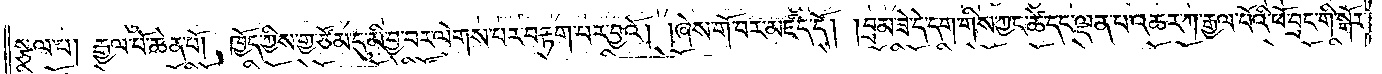སྩལ་པ། རྒྱལ་པོ་ཆེན་པོ། ཁྱོད་ཀྱིས་གྱ་ཙོམ་དུ་མི་བྱ་བར་ལེགས་པར་བརྟག་པར་བྱའོ། །ཞེས་གོ་བར་མཛད་དོ། །བྲམ་ཟེ་དེ་དག་གིས་ཀྱང་ཚེ་དང་ལྡན་པ་འཆར་ཀ་རྒྱལ་པོའི་ཕོ་བྲང་གི་སྒོར་
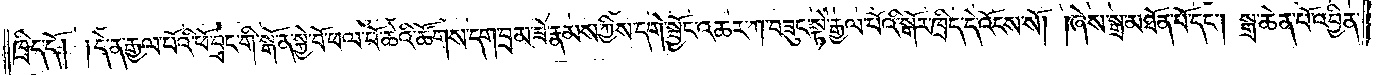ཁྲིད་དོ། །དེ་ན་རྒྱལ་པོའི་ཕོ་བྲང་གི་སྒོ་ན་སྐྱེ་བོ་ཕལ་པོ་ཆེའི་ཚོགས་དག་བྲམ་ཟེ་རྣམས་ཀྱིས་དགེ་སྦྱོང་འཆར་ཀ་བཟུང་སྟེ་རྒྱལ་པོའི་སྒོར་ཁྲིད་དེ་འོངས་སོ། །ཞེས་སྒྲ་མཐོན་པོ་དང༌། སྒྲ་ཆེན་པོ་འབྱིན་
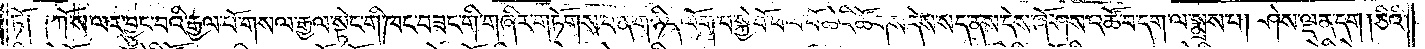ཏོ༑ ༑ཀོ་ས་ལར་བྱུང་བའི་རྒྱལ་པོ་གསལ་རྒྱལ་སྟེང་གི་ཁང་བཟང་གི་གཞིར་གཏོགས་པ་ན་གཉིད་ལོག་པ་སྐྱེ་བོ་ཕལ་པོ་ཆེའི་ཚོགས་དེས་སད་ནས་དེས་ཞོ་ཤས་འཚོ་བ་དག་ལ་སྨྲས་པ། ཤེས་ལྡན་དག །ཅིའི་
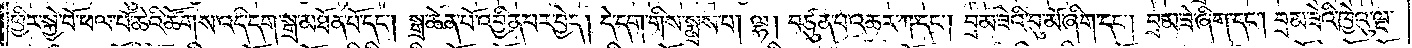ཕྱིར་སྐྱེ་བོ་ཕལ་པོ་ཆེའི་ཚོགས་འདི་དག་སྒྲ་མཐོན་པོ་དང༌། སྒྲ་ཆེན་པོ་འབྱིན་པར་བྱེད། དེ་དག་གིས་སྨྲས་པ། ལྷ། བཙུན་པ་འཆར་ཀ་དང༌། བྲམ་ཟེའི་བུ་མོ་ཞིག་དང༌། བྲམ་ཟེ་ཞིག་དང༌། བྲམ་ཟེའི་ཁྱེའུ་ལྔ་
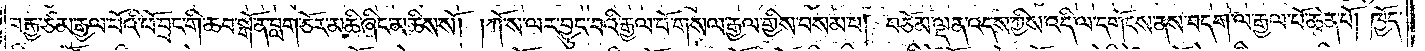བརྒྱ་ཙམ་རྒྱལ་པོའི་ཕོ་བྲང་གི་ཆབ་སྒོ་ན་བླག་ཅོར་མཆི་ཞིང་མཆིས་སོ། །ཀོ་ས་ལར་བྱུང་བའི་རྒྱལ་པོ་གསལ་རྒྱལ་གྱིས་བསམ་པ། བཅོམ་ལྡན་འདས་ཀྱིས་འདི་ལ་དགོངས་ནས་བདག་ལ་རྒྱལ་པོ་ཆེན་པོ། ཁྱོད་
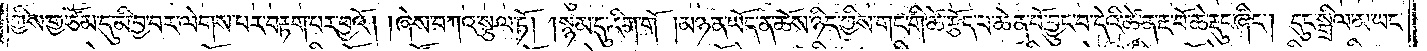ཀྱིས་གྱ་ཙོམ་དུ་མི་བྱ་བར་ལེགས་པར་བརྟག་པར་བྱའོ། །ཞེས་བཀའ་སྩལ་ཏོ། །སྙམ་དུ་རིག་གོ །མཉན་ཡོད་ན་ཆོས་ཉིད་ཀྱིས་གང་གི་ཚེ་རྩོད་པ་ཆེན་པོ་བྱུང་བ་དེའི་ཚེ་ན་རྔ་བོ་ཆེ་རྡུང་ཞིང༌། དུང་སྒྲིལ་མ་ཡང་
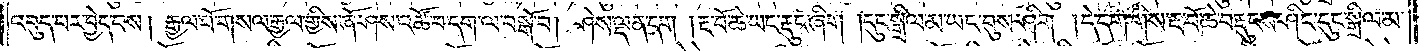འབུད་པར་བྱེད་པས། རྒྱལ་པོ་གསལ་རྒྱལ་གྱིས་ཞོ་ཤས་འཚོ་བ་དག་ལ་བསྒོ་བ། ཤེས་ལྡན་དག །རྔ་བོ་ཆེ་ཡང་རྡུང་ཞིག །དུང་སྒྲིལ་མ་ཡང་བུས་ཤིག །དེ་དག་གིས་རྔ་བོ་ཆེ་བརྡུངས་ཤིང་དུང་སྒྲིལ་མ་
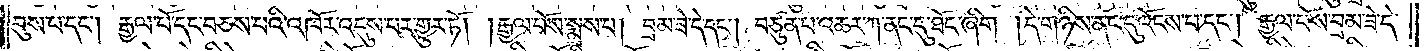བུས་པ་དང༌། རྒྱལ་པོ་དང་བཅས་པའི་འཁོར་འདུས་པར་གྱུར་ཏོ། །རྒྱལ་པོས་སྨྲས་པ། བྲམ་ཟེ་དེ་དང༌། བཙུན་པ་འཆར་ཀ་ནང་དུ་ཐོང་ཞིག །དེ་གཉིས་ནང་དུ་འོངས་པ་དང༌། རྒྱལ་པོས་བྲམ་ཟེ་དེ་
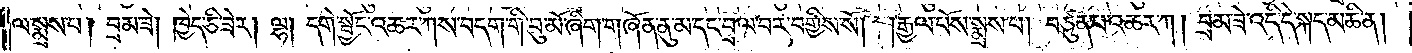ལ་སྨྲས་པ། བྲམ་ཟེ། ཁྱེད་ཅི་ཟེར། ལྷ། དགེ་སྦྱོང་འཆར་ཀས་བདག་གི་བུ་མོ་ཞིག་གཞོན་ནུ་མ་དང་བྲལ་བར་བགྱིས་སོ། །རྒྱལ་པོས་སྨྲས་པ། བཙུན་པ་འཆར་ཀ། བྲམ་ཟེ་འདི་དེ་སྐད་མཆི་ན།
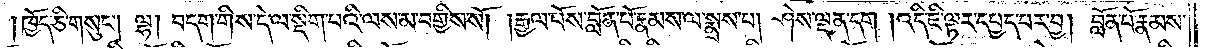ཁྱོད་ཅི་གསུང༌། ལྷ། བདག་གིས་དེ་ལ་སྡིག་པའི་ལས་མ་བགྱིས་སོ། །རྒྱལ་པོས་བློན་པོ་རྣམས་ལ་སྨྲས་པ། ཤེས་ལྡན་དག །འདི་ཇི་ལྟར་དཔྱད་པར་བྱ། བློན་པོ་རྣམས་
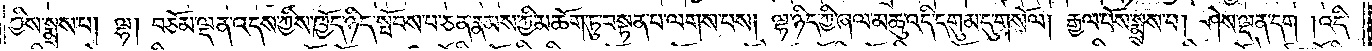ཀྱིས་སྨྲས་པ། ལྷ། བཅོམ་ལྡན་འདས་ཀྱིས་ཁྱོད་ཉིད་སྤོབས་པ་ཅན་རྣམས་ཀྱི་མཆོག་ཏུ་བསྟན་པ་ལགས་པས། ལྷ་ཉིད་ཀྱི་ཞལ་མཆུ་འདི་དགུམ་དུ་གསོལ། རྒྱལ་པོས་སྨྲས་པ། ཤེས་ལྡན་དག །འདི་
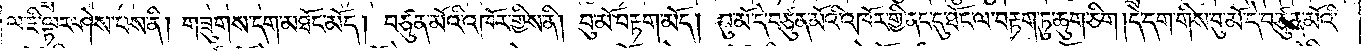ལ་ཇི་ལྟར་ཤེས་པས་ནི། གཟུགས་དག་མཐོང་མོད། བཙུན་མོའི་འཁོར་གྱིས་ནི། བུ་མོ་བརྟག་མོད། བུ་མོ་དེ་བཙུན་མོའི་འཁོར་གྱི་ནང་དུ་ཐོང་ལ་བརྟག་ཏུ་ཆུག་ཅིག །དེ་དག་གིས་བུ་མོ་དེ་བཙུན་མོའི་
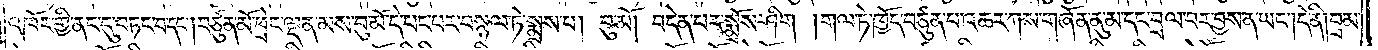འཁོར་གྱི་ནང་དུ་བཏང་བ་དང༌། བཙུན་མོ་ཕྲེང་ལྡན་མས་བུ་མོ་དེ་པང་བར་བསྙལ་ཏེ་སྨྲས་པ། བུ་མོ། བདེན་པར་སྨྲོས་ཤིག །གལ་ཏེ་ཁྱོད་བཙུན་པ་འཆར་ཀས་གཞོན་ནུ་མ་དང་བྲལ་བར་བྱས་ན་ཡང༌། དེ་ནི། བྲམ་
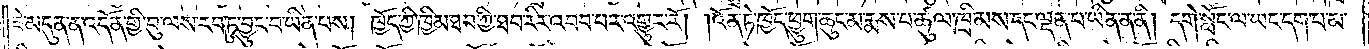ཟེ་མདུན་ན་འདོན་གྱི་བུ་ལས་རབ་ཏུ་བྱུང་བ་ཡིན་པས། ཁྱོད་ཀྱི་ཁྱིམ་ཐབ་ཀྱི་ཐབ་རིར་འབབ་པར་འགྱུར་རོ། །འོན་ཏེ་ཁྱོད་ཕྱུག་ཆུང་མ་རྨས་པ་ཚུལ་ཁྲིམས་དང་ལྡན་པ་ཡིན་ན་ནི། དགེ་སློང་ལ་ཡང་དག་པ་མ་
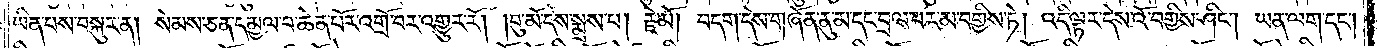ཡིན་པས་བསྐུར་ན། སེམས་ཅན་དམྱལ་བ་ཆེན་པོར་འགྲོ་བར་འགྱུར་རོ། །བུ་མོ་དེས་སྨྲས་པ། རྗེ་མོ། བདག་དེས་གཞོན་ནུ་མ་དང་བྲལ་བར་མ་བགྱིས་ཏེ། འདི་ལྟར་དེས་འོ་བགྱིས་ཤིང༌། ཡན་ལག་དང༌།
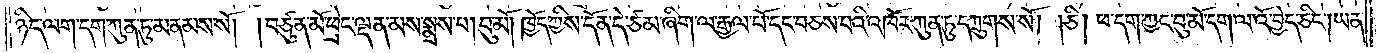ཉིད་ལག་དག་ཀུན་ཏུ་མནམས་སོ། །བཙུན་མོ་ཕྲེང་ལྡན་མས་སྨྲས་པ། བུ་མོ། ཁྱོད་ཀྱིས་དོན་དེ་ཙམ་ཞིག་ལ་རྒྱལ་པོ་དང་བཅས་པའི་འཁོར་ཀུན་ཏུ་དཀྲུགས་སོ། །ཅི། ཕ་དག་ཀྱང་བུ་མོ་དག་ལ་འོ་བྱེད་ཅིང༌། ཡན་
